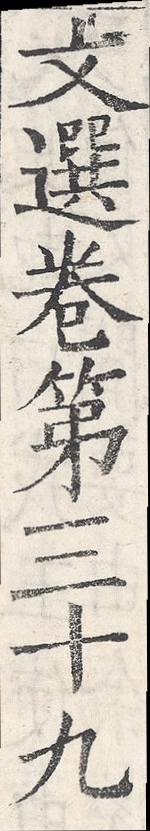文選卷第三十九
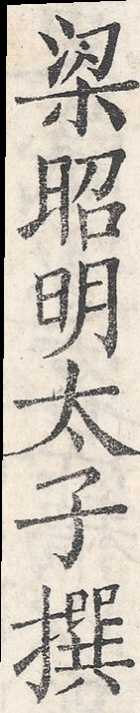梁昭明太子撰
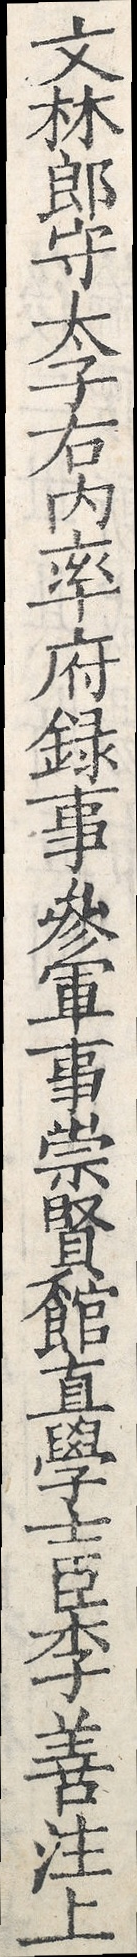文林郎守太子右内率府録事參軍事崇賢館直學士臣李善注上
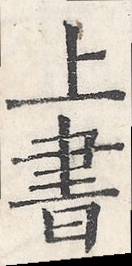上書
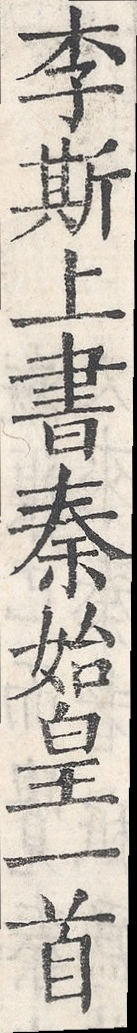李斯上書秦始皇一首
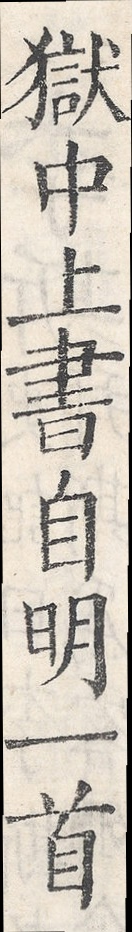獄中上書自明一首
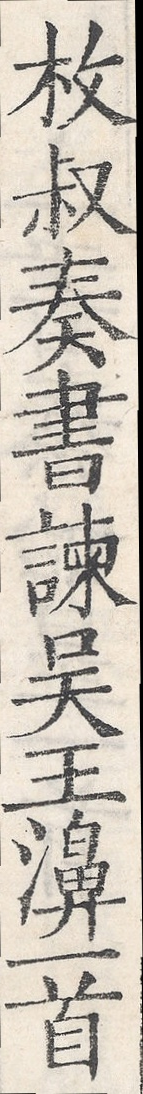枚叔奏書諫吳王濞一首
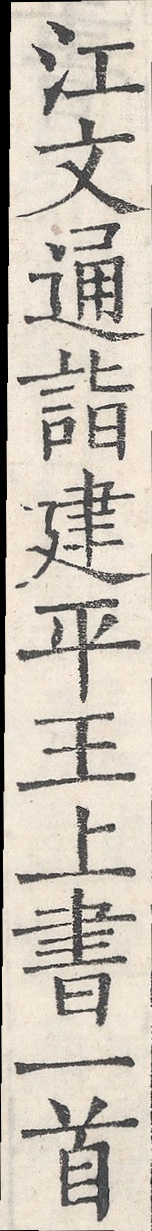江文通建平王上書一首
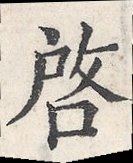啓
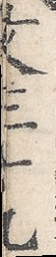文三十九
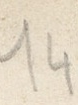14
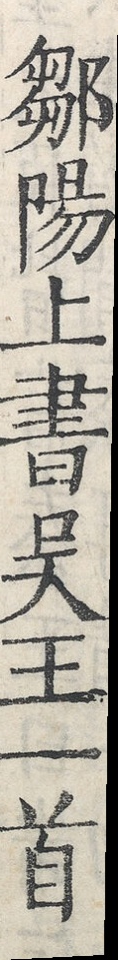鄒陽上書吳王一首
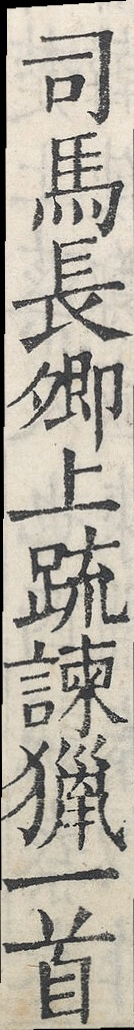司馬長卿上疏諫獵一首
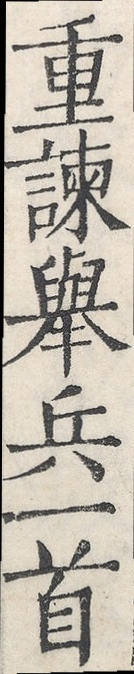重諫擧兵一首
